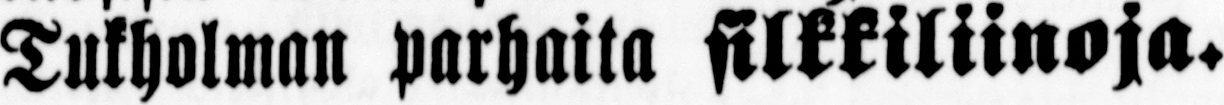Tukholman parhaita silkkiliinoja.
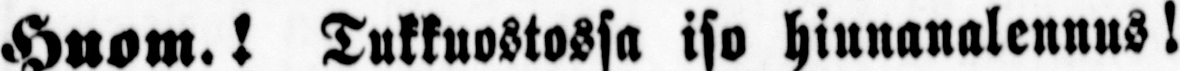Huom.! Tukkuostossa iso hinnanalennus!
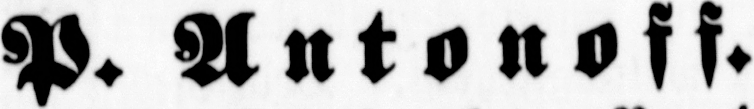P. Antonoff.
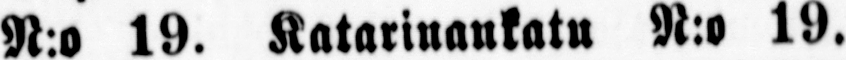N:o 19. Katarinankatu N:o 19.
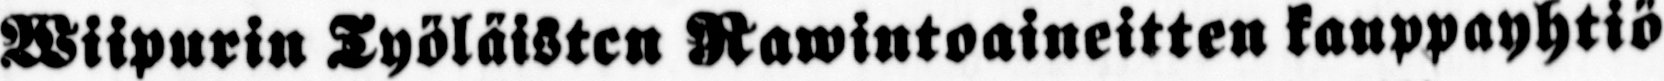Wiipurin Työläisten Rawintoaineitten kauppayhtiö
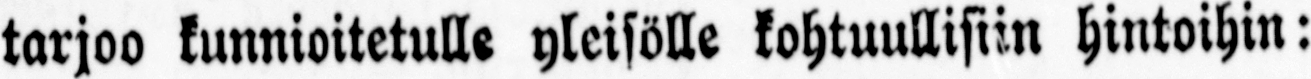tarjoo kunnioitetulle yleisölle kohtuullisiin hintoihin:
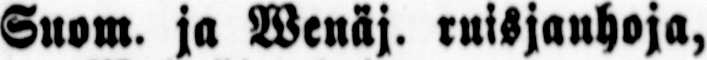Suom. ja Wenäj. ruisjanhoja,
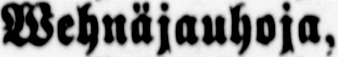Wehnäjauhoja.
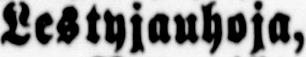Lestyjauhoja,
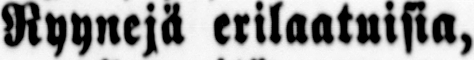Ryynejä erilaatuisia,
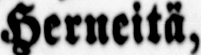Herneitä,
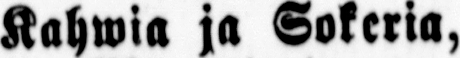Kahwia ja Sokeria,
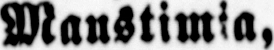Maustimia,
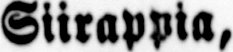Siirappia,
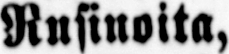Rusinoita,
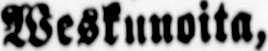Weskunoita,
